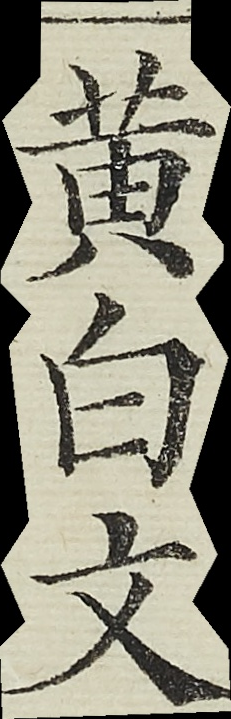黃白文
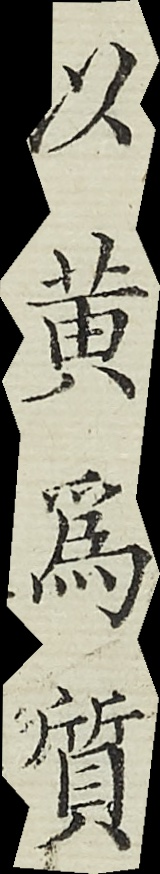以黃為質
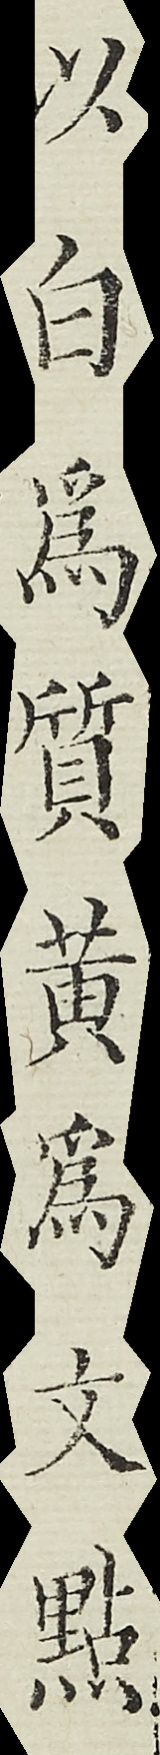以白為質黃為文點
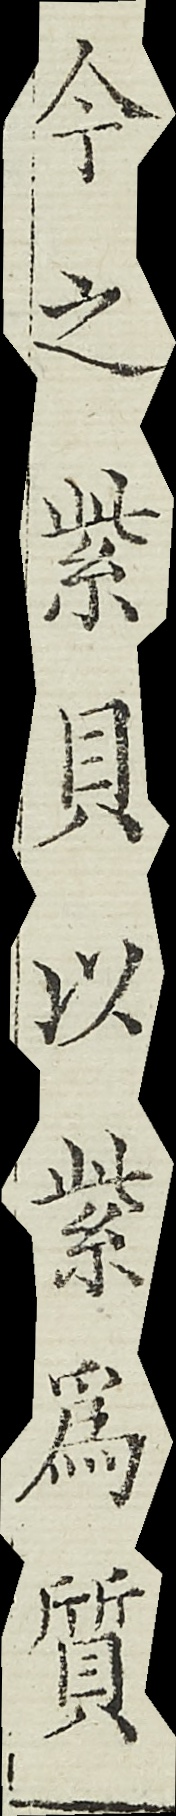今之紫貝以紫為質質
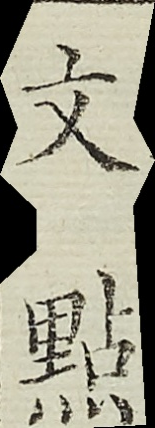文點
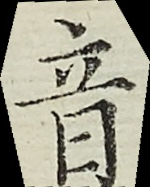音
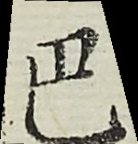巴
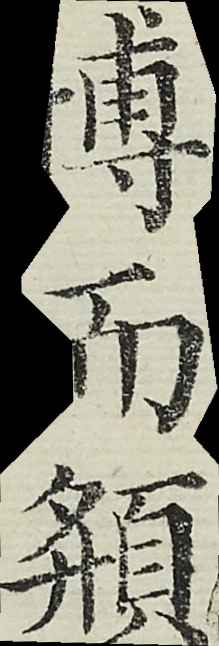博而預
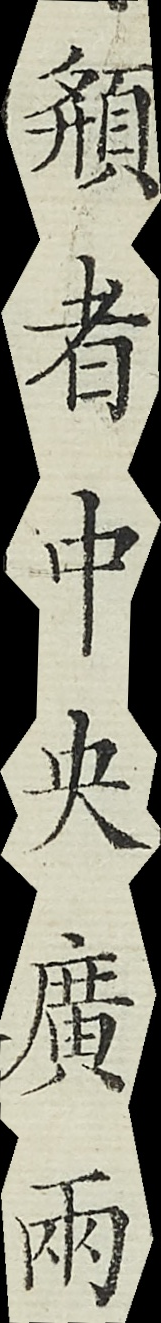預者中央廣兩
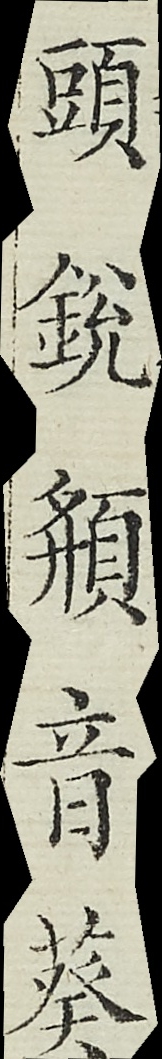頭銳預音葵
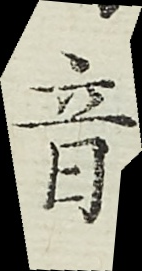音
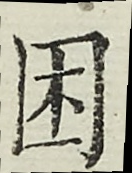困
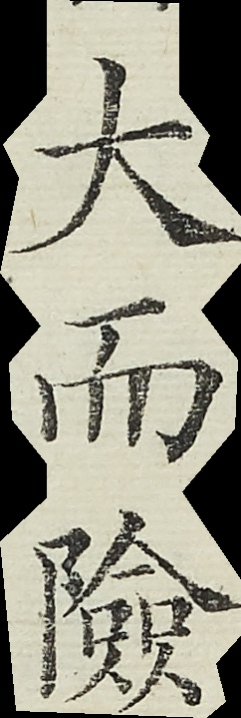大而險
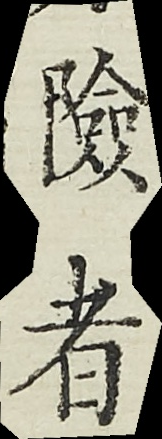險者
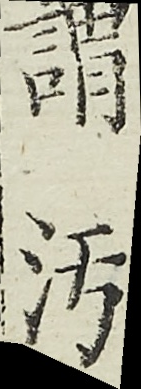謂污
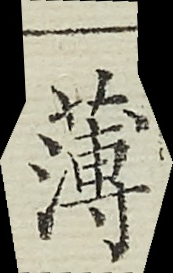薄
